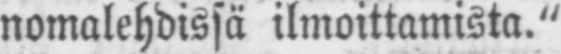nomalehdissä ilmoittamista."
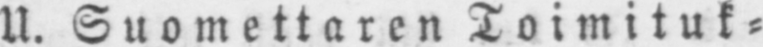U. Suomettaren Toimituk-
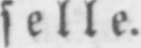selle.
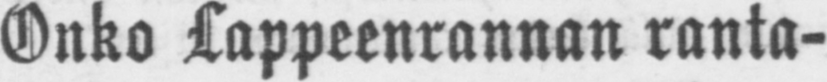Onko Lappeenrannan ranta-
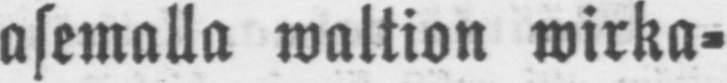asemalla waltion wirka-
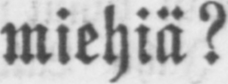miehiä?
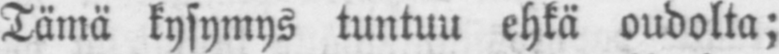Tämä kysymys tuntuu ehkä oudolta;
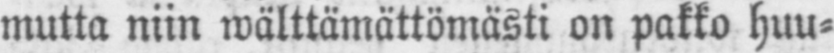mutta niin wälttämättömästi on pakko huu-
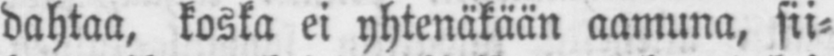dahtaa, koska ei yhtenäkään aamuna, sii-
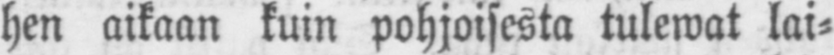hen aikaan kuin pohjoisesta tulewat lai-
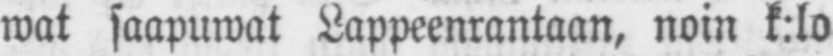wat saapuwat Lappeenrantaan, noin k:lo
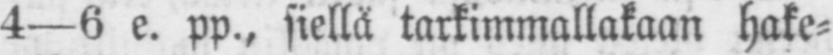4 —6 e. pp., siellä tarkimmallakaan hake-
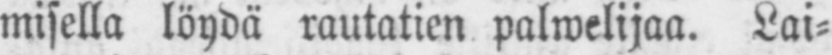misella löydä rautatien palwelijaa. Lai-
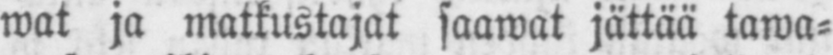wat ja matkustajat saawat jättää tawa-
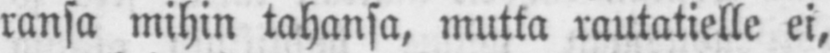ransa mihin tahansa, mutta rautatielle ei,
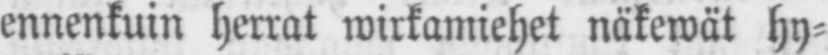ennenkuin herrat wirkamiehet näkewät hy-
